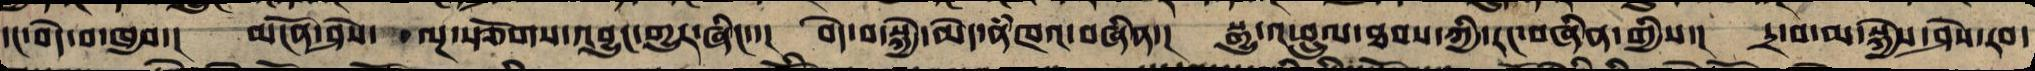དང་བདེ་བ་ཁྱབ་། མངོན་ཤེས་  ལྔ་སྩོགས་འབྱུང་གྱུར་ཞིང་་།  བདེ་བ་སྐྱེད་མེད་ནཾཁའ་བཞིན་།  སྒྱུ་འཕྲུལ་ཐབས་ཀྱི་རང་བཞིན་གྱིས་།  དྲ་བ་མ་སྐྱེས་ཤེས་རབ་
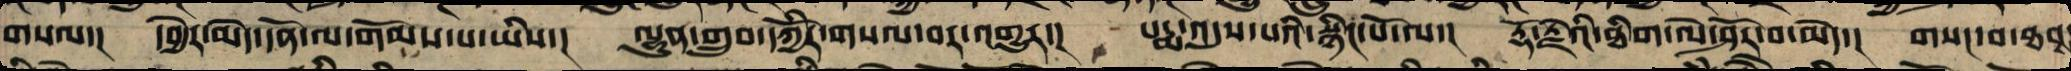གསལ་།  དབྱེར་མེད་དོན་ལ་གོམས་པ་ཡིས་།  ལྷུན་གྲུབ་དཀྱིོར་གསལ་བར་འགྱུར་།  པདྨ་འདུས་པའི་སྙིང་པོ་ལ་།  རྡོ་རྗེའི་ཐིག་ལེ་ཤོར་བ་མེད་།  གསང་བ་ཐབས་
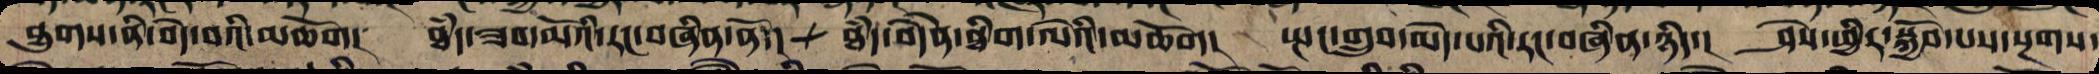ཐུགས་ནི་བདེ་བའི་མཆོག། ཐཾད་ཟབ་མོའི་རང་བཞིན་ནོ་། ཐཾད་བདེེནེ་ཐིག་ལེའི་མཆོག། སྤང་གྲུབ་མེད་པའི་རང་བཞིན་ཉིད་།  ཤེས་ཕྱིར་སྐྱོབ་པས་སྔགས་
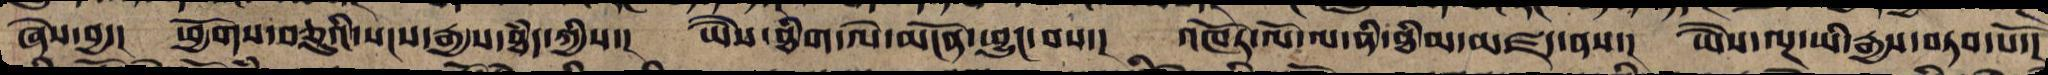ཞེས་བྱ་།  ཕྱོགས་བཅུའི་སངས་རྒྱས་ཐཾད་ཀྱིས་།  ཡེཻས་ཐིག་ལེ་མངོན་ཕྱུང་བས་།  འཁོར་ལོ་ལ་ནི་ཐིམ་མཛད་ནས་།  ཡེཻས་ལྔ་ཡི་རྒྱས་བཏབ་པོ་།
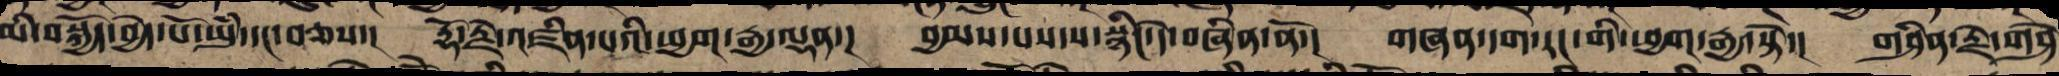མི་བསྐྱོད་བྱེད་པོ་ཡུཾ་དང་བཅས་།  རྡོ་རྗེ་འཛིན་པའི་ཕྱག་རྒྱ་ལྡན་།  བྱམས་པས་ས་སྙིང་དེ་བཞིན་ནོ་།  གཞན་དག་རང་གི་ཕྱག་རྒྱ་སྟེ་།  གཤིན་རྗེ་གཤེ
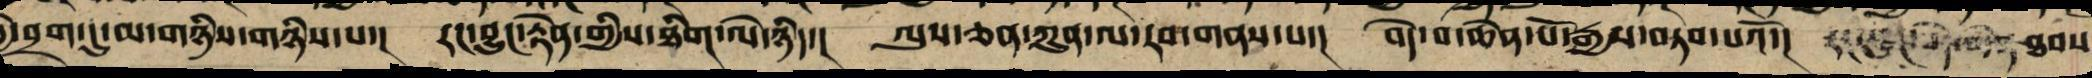བྱེ་བྲག་དུ་མ་གཉིས་གཉིས་པ་།   རང་བྱུང་རྟེན་གྱིས་ཐིག་ལེ་ཉིད་།   ལུས་ཅན་ཀུན་ལ་རབ་གནས་པ་།    བདེ་བ་ཆེན་པོ་རྒྱས་བཏབ་པའོ་།       ཐབས་
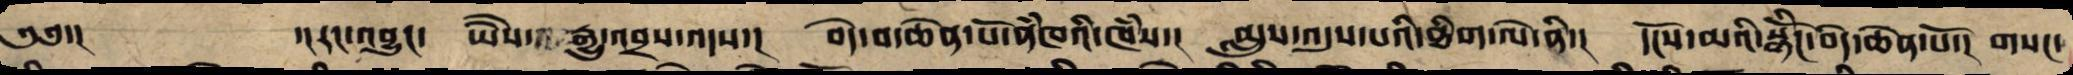༄༅་།       ་།རང་བྱུང་ ཡེཻས་རྒྱུ་འབྲས་འདས་།  བདེ་བ་ཆེན་པོ་ནཾཁའི་ཁཾས་།  མླུས་འདུས་པའི་ཐིག་ལེ་ནི།  དངོས་མའི་སྙིངོ་བདེ་ཆེན་པོ། གསང་
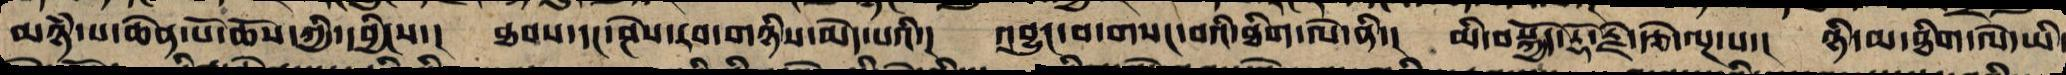མཉཾ་པ་ཆེན་པོ་ཆོས་ཀྱི་དབྱིངས་། ཐབས་དང་ཤེས་རབ་གཉིས་མེད་པའི་། འབྱུང་བ་གསང་བའི་ཐིག་ལེ་ནི་། མི་བསྐྱོད་རྡོ་རྗེ་རྩེ་ལྔ་པ་། ཉི་མ་ཐིག་ལེ་ཡི་
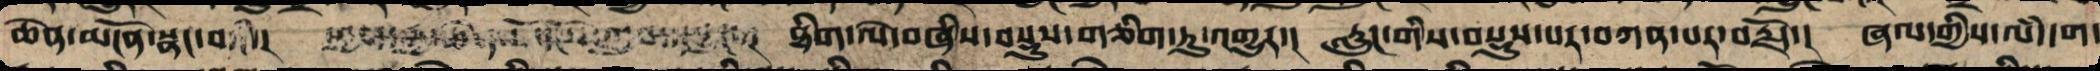ཆེན་མངོན་སྣང་བ་།    ཐིག་ལེ་བཞིས་བསྡུས་གཅིག་ཏུ་འགྱུར་། རླུང་གིས་བསྡུས་པར་བཀན་པར་བརྗོད་། ཞལ་གྱིས་ལཾ་དག་
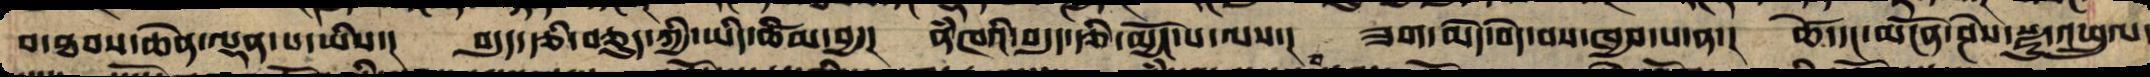བ་ཐབས་ཆེན་ལྡན་པ་ཡིས་།  བདུད་རྩི་བཅུད་ཀྱི་ཡིད་ཚིམ་བྱ་།  ནཾཁའི་བདུད་རྩི་མྱོང་བ་ལས་།  ཟག་མེད་བདེ་བས་ཁྱབ་པ་ན་།  ཚེ་དང་མངོན་ཤེས་སྫུ་འཕྲུལ་
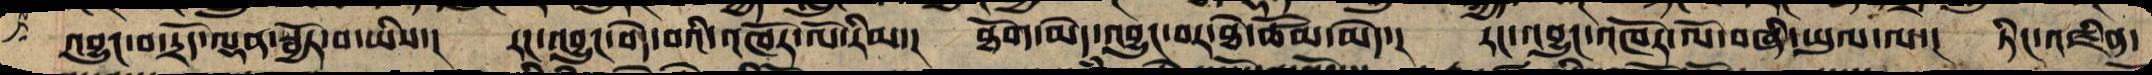འབྱུང་བ་དྲོད་ལྡན་འབྱུང་བ་ཡིས་། རང་བྱུང་བདེ་བའི་འཁོར་ལོ་རིམ་། ཐོག་མེད་འབྱུང་བར་ཐེ་ཚོམ་མེད་། རང་འབྱུང་འཁོར་ལོ་བཞི་ཡུལ་ལ་། ཏིང་འཛིན་
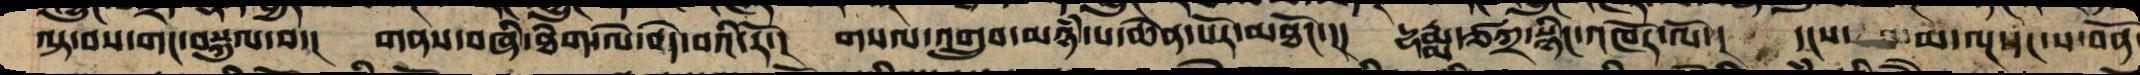ལྟ་བས་གང་བསྐུལ་བ་།  གནས་བཞི་ཐིག་ལེ་བདེ་བའི་རོ་།  གསལ་འགྲུབ་མཉཾ་པ་ཆེན་པོར་མཐོང་་།  དྷརྨྨ་ཙཀྲ་སྙིང་འཁོར་ལོ་།  དངས་  མ་ལྔ་དང་ས་བོན་
